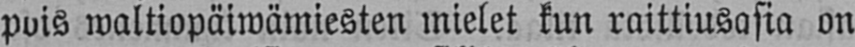pois waltiopäiwämiesten mielet kun raittiusasia on
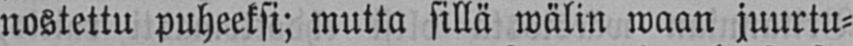nostettu puheeksi; mutta sillä wälin waan juurtu-
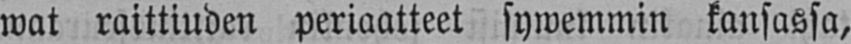wat raittiuden periaatteet sywemmin kansassa,
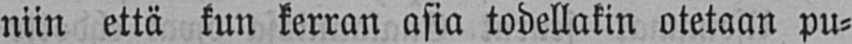niin että kun kerran asia todellakin otetaan pu-
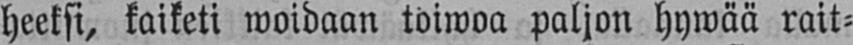heeksi, kaiketi woidaan toiwoa paljon hywää rait-
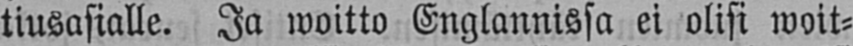tiusasialle. Ja woitto Englannissa ei olisi woit-
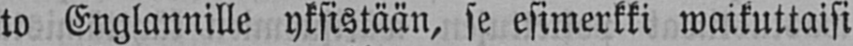to Englannille yksistään, se esimerkki waikuttaisi
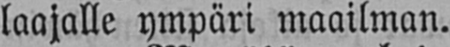laajalle ympäri maailman.
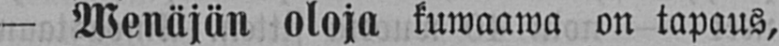— Wenäjän aloja kuwaawa on tapaus,
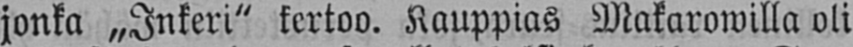jonka „Inkeri" kertoo, Kauppias Makarowilla oli
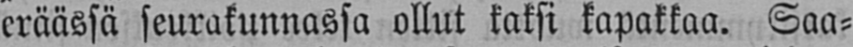eräässä seurakunnassa ollut kaksi kapakkaa. Saa-
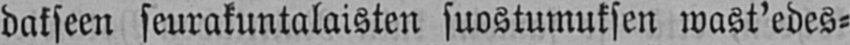dakseen seurakuntalaisten suostumuksen wast'edes-
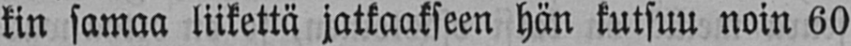kin samaa liikettä jatkaakseen hän kutsuu noin 60
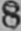8
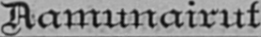Aamunairut.
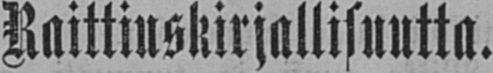Raittiuskirjallisuutta.
